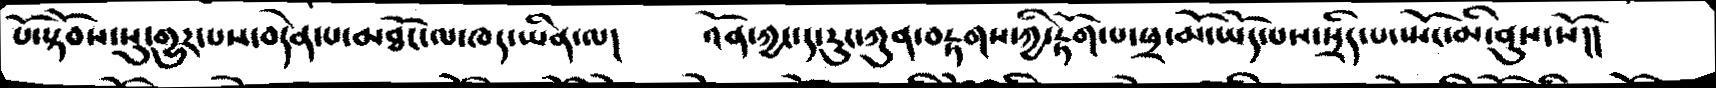པོ་སྟོབས་སུ་གྱུར་པས་བདེན་པ་མཐོང་ལ་ཁད་ཡིན་ལ།   འོན་ཀྱང་ད་རུང་ཀུན་བརྟགས་ཀྱི་རྟོག་པ་ཕྲ་མོ་ཡོད་པས་སྲིད་པ་སྤོང་མི་ནུས་སོ།།
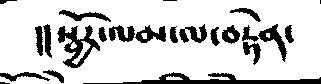།།སྦྱོར་ལམ་ལ་བརྟེན་
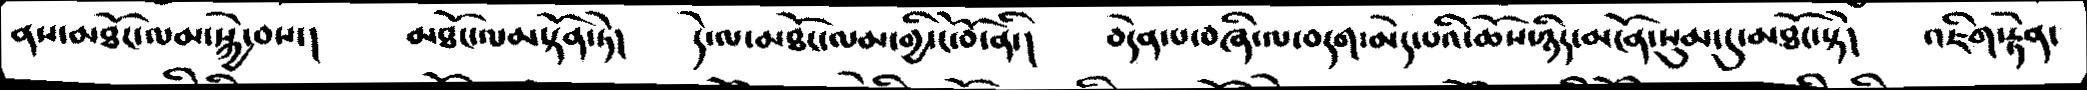ནས་མཐོང་ལམ་སྐྱེ་བས་།   མཐོང་ལམ་སྟོན་ཏེ།   དེ་ལ་མཐོང་ལམ་གྱི་ངོ་བོ་ནི།   བདེན་པ་བཞི་ལ་བདག་མེད་པའི་ཆོས་ཉིད་མངོན་སུམ་དུ་མཐོང་སྟེ།   འཇིག་རྟེན་
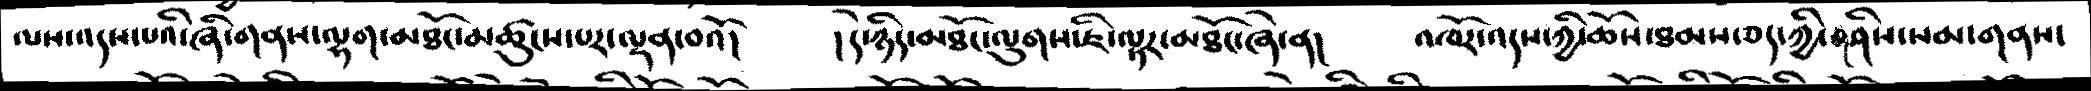ལས་འདས་པའི་ཞི་གནས་ལྷག་མཐོང་མཚུངས་པར་ལྡན་བའོ།   །དེ་ཉིད་མཐོང་ལུགས་ཇི་ལྟར་མཐོང་ཞེ་ན།   འཁོར་འདས་ཀྱི་ཆོས་ཐམས་ཅད་ཀྱི་གཤིས་སམ་གནས་
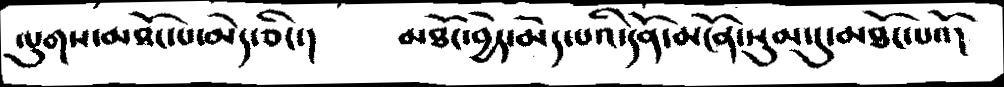ལུགས་མཐོང་པ་མེད་ཅིང་།   མཐོང་བྱེད་མེད་པའི་དོན་མངོན་སུམ་དུ་མཐོང་པའོ།
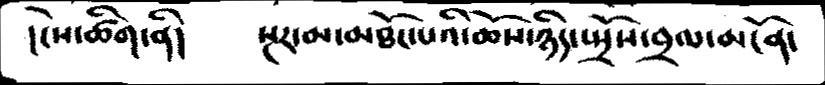།ངེས་ཚིག་ནི།   སྔར་མ་མཐོང་པའི་ཆོས་ཉིད་སྤྲོས་བྲལ་མངོན་
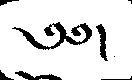༄༅།
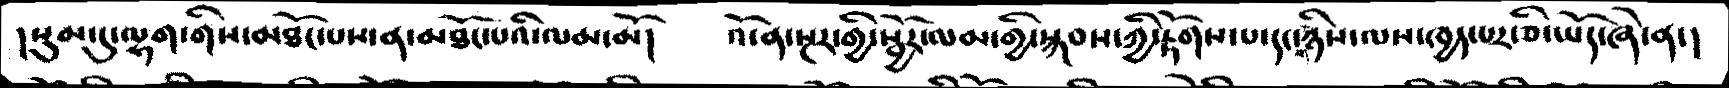།སུམ་དུ་ལྷག་གིས་མཐོང་པས་ན་མཐོང་པའི་ལམ་མོ།   འོ་ན་སྔར་གྱི་སྦྱོར་ལམ་གྱི་སྐབས་ཀྱི་རྟོགས་དང་གཉིས་ལས་ཁྱད་པར་ཅི་ཡོད་ཞེ་ན་།
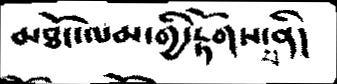མཐོང་ལམ་གྱི་རྟོགས་པ་ནི།
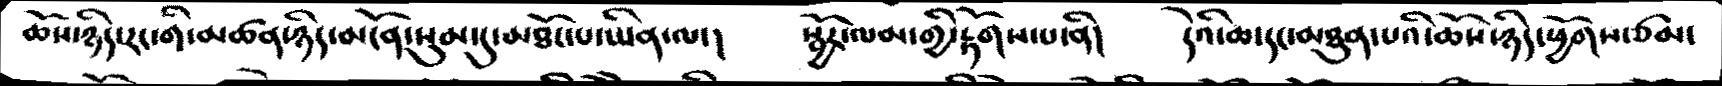ཆོས་ཉིད་རང་གི་མཚན་ཉིད་མངོན་སུམ་དུ་མཐོང་པ་ཡིན་ལ་།   སྦྱོར་ལམ་གྱི་རྟོགས་པ་ནི།   དེའི་ཆ་དང་མཐུན་པའི་ཆོས་ཉིད་ཕྱོགས་ཙམ་
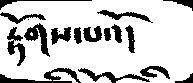རྟོགས་པའོ།
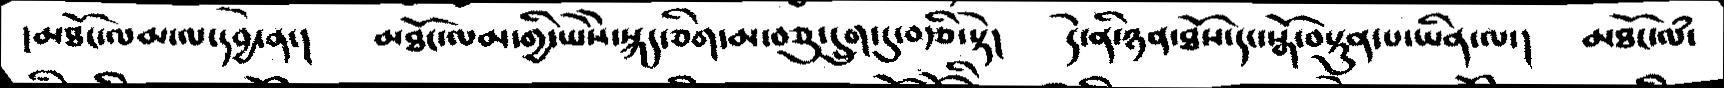།མཐོང་ལམ་ལ་དབྱེ་ན་།   མཐོང་ལམ་གྱི་ཡཻས་སྐད་ཅིག་མ་བཅུ་དྲུག་དུ་བརྩི་སྟེ།   དེ་ནི་ཉན་ཐོས་དང་སྒོ་བསྟུན་པ་ཡིན་ལ་།   མཐོང་ལཾ་
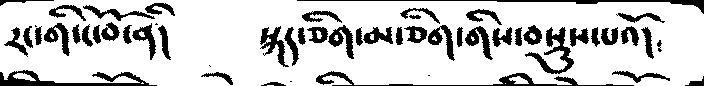རང་གི་ངོ་བོ་ནི།   སྐད་ཅིག་མ་ཅིག་གིས་བསྡུས་པའོ།
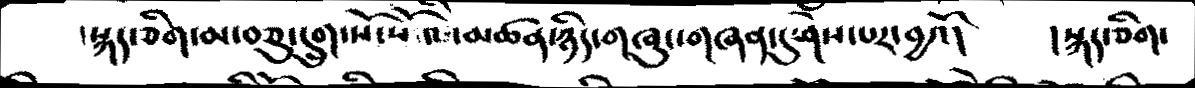།སྐད་ཅིག་མ་བཅུ་དྲུག་སོ་སོའི་མཚན་ཉིད་གཞུང་གཞན་དུ་ཤེས་པར་བྱའོ།   །སྐད་ཅིག་
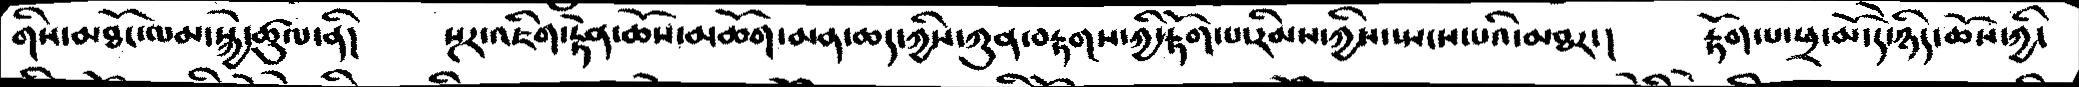གིས་མཐོང་ལམ་སྐྱེ་ཚུལ་ནི།   སྔར་འཇིག་རྟེན་ཆོས་མཆོག་མན་ཆད་ཀྱིས་ཀུན་བརྟགས་ཀྱི་རྟོག་པ་རིམས་ཀྱིས་སྤངས་པའི་མཐར་།   རྟོག་པ་ཕྲ་མོ་དེ་ཉིད་ཆོས་ཀྱི་
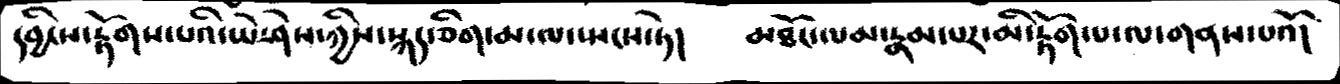དབྱིངས་རྟོགས་པའི་ཡེ་ཤེས་ཀྱིས་སྐད་ཅིག་མ་ལ་སྤངས་ཏེ།   མཐོང་ལམ་རྣམ་པར་མི་རྟོག་པ་ལ་གནས་པའོ།
